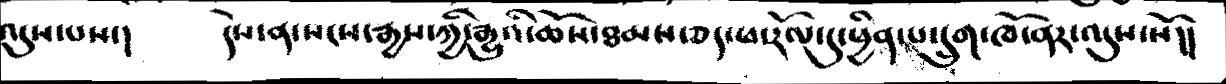འདུས་པས་།   དེས་ན་སངས་རྒྱས་ཀྱི་རྒྱུའི་ཆོས་ཐམས་ཅད་ཕ་རོལ་དུ་ཕྱིན་པ་དྲུག་ཁོ་ནར་འདུས་སོ།།
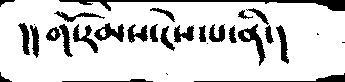།།གོ་རིམས་ངེས་པ་ནི་།
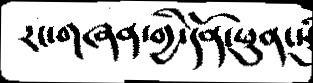རང་གཞན་གྱི་དོན་ཕུན་སུཾ
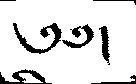༄༅།
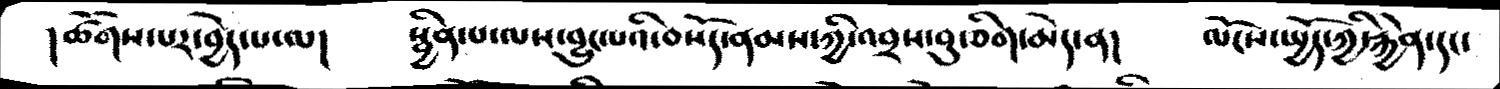།ཚོགས་པར་བྱེད་པ་ལ།   སྦྱིན་པ་ལས་བྱུང་པའི་བསོད་ནམས་ཀྱི་འབྲས་བུ་ཅིག་མེད་ན།   ལོངས་སྤྱོད་ཀྱི་རྐྱེན་དང་
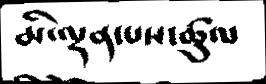མི་ལྡན་པས་ཚུལ
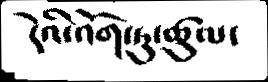དེའི་འོག་ཏུ་ཚུལ་
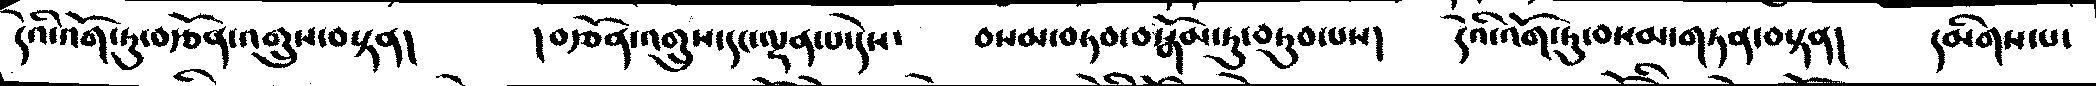དེའི་འོག་ཏུ་བརྩོན་འགྲུས་བསྟན།   །བརྩོན་འགྲུས་དང་ལྡན་པ་དེས་   བསམ་བཏབ་བསྒོམ་ཏུ་བཏུབ་པས།   དེའི་འོག་ཏུ་བསམ་གཏན་བསྟན།   དམིགས་པ་
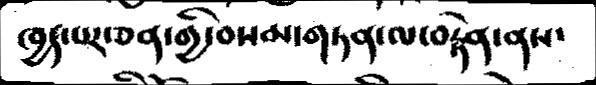ཁྱད་པར་ཅན་གྱི་བསམ་གཏན་ལ་བརྟེན་ནས་
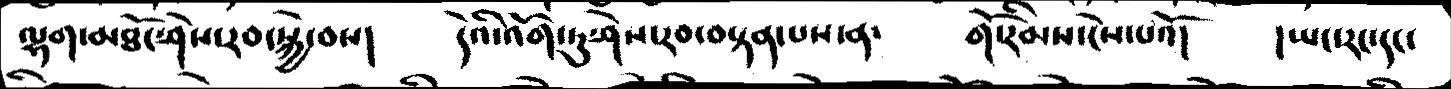ལྷག་མཐོང་ཤེས་རབ་སྐྱེ་བས།   དེའི་འོག་ཏུ་ཤེས་རབ་བསྟན་པས་ན་   གོ་རིམས་ངེས་པའོ།   །ཡང་རང་དང་
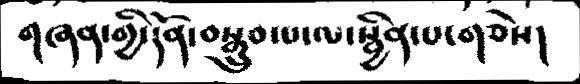གཞན་གྱི་དོན་བསྒྲུབ་པ་ལ་སྦྱིན་པ་གཅེས།
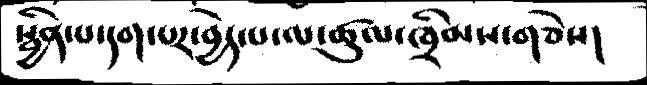སྦྱིན་པ་དག་པར་བྱེད་པ་ལ་ཚུལ་ཁྲིམས་གཅེས།
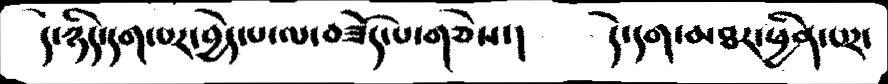དེ་ཉིད་དག་པར་བྱེད་པ་ལ་བཟོད་པ་གཅེས་།   དེ་དག་མཐར་ཕྱིན་པར་
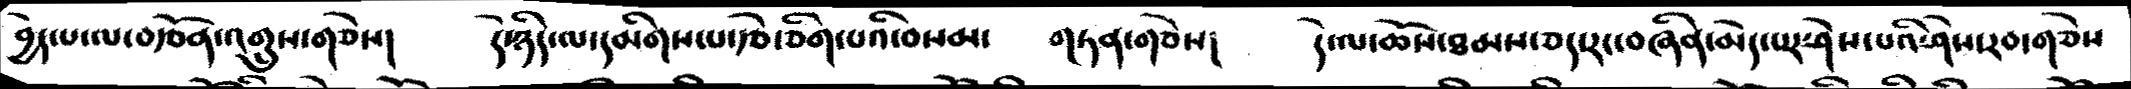བྱེད་པ་ལ་བརྩོན་འགྲུས་གཅེས།   དེ་ཉིད་ལ་དམིགས་པ་རྩེ་ཅིག་པའི་བསམ་  གཏན་གཅེས།   དེ་ལ་ཆོས་ཐམས་ཅད་རང་བཞིན་མེད་པར་ཤེས་པའི་ཤེས་རབ་གཅེས
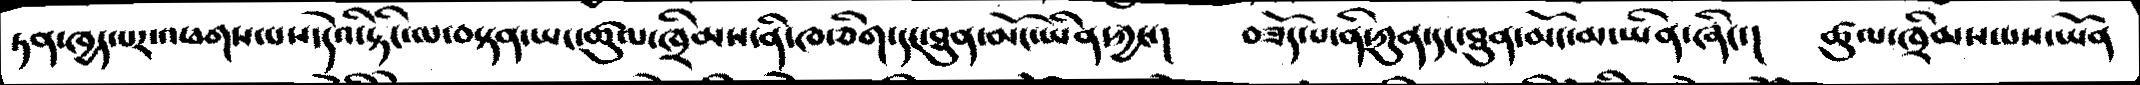ཏན་ཁྱད་པར་འཕགས་པས་དེའི་རྟིང་ལ་བསྟན་ཡང་ཚུལ་ཁྲིམས་ནི་ཁ་ཅིག་དང་ཐུན་མོང་ཡིན་ཀྱང་།   བཟོད་པ་ནི་ཀུན་དང་ཐུན་མོང་མ་ཡིན་ཞིང་།   ཚུལ་ཁྲིམས་པས་ཡོན
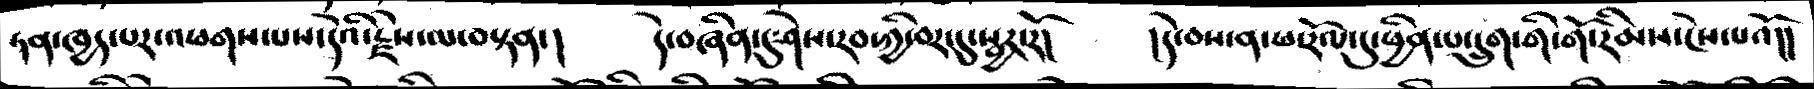ཏན་ཁྱད་པར་འཕགས་པས་དེའི་རྗེས་ལ་བསྟན་།  དེ་བཞིན་དུ་ཤེས་རབ་ཀྱི་བར་དུ་སྦྱར་རོ།   །དེ་བས་ན་ཕ་རོལ་དུ་ཕྱིན་པ་དྲུག་གི་གོ་རིམས་ངེས་པའོ།།
